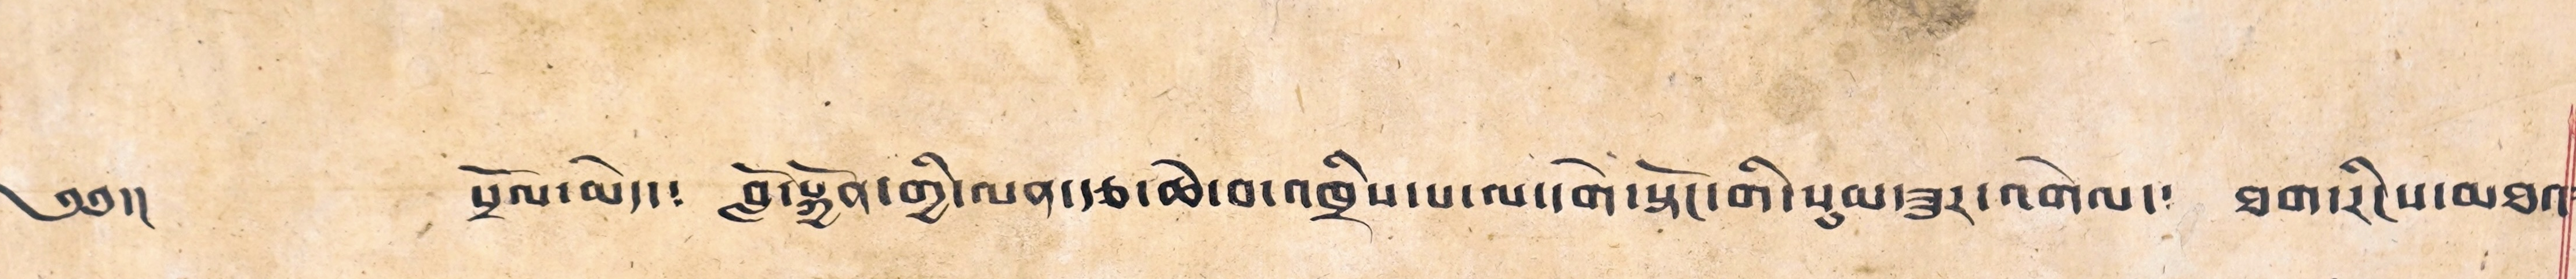༄༅།། སྲོལ་མེད་༴ བློ་སྐྱོན་གྱི་ལན་རྩ་ཆེ་བ་འཁྲིས་པ་ལ་དགེ་སྟོང་གི་སུམ་ཟུར་འགེལ་༴ ཐག་རིངས་མཐའ༴
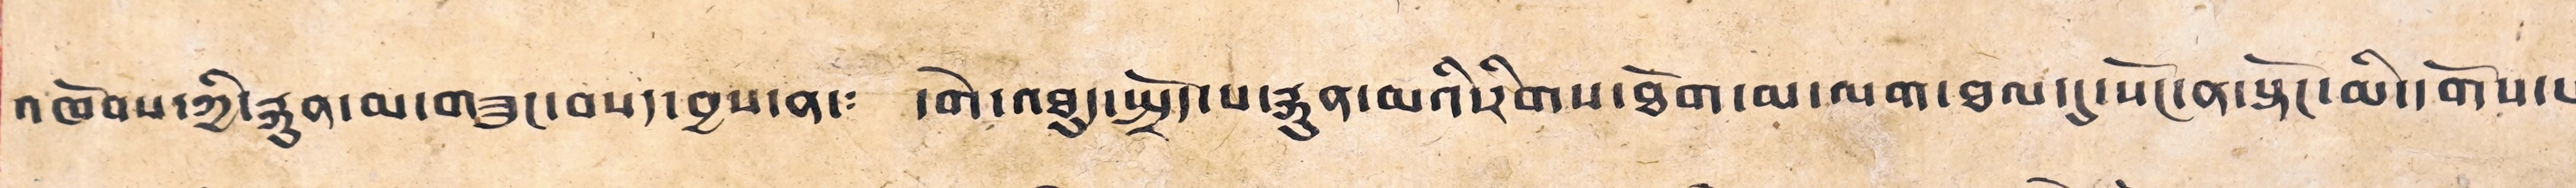འཁོབས་ཀྱི་རྐུན་མ་གཟུང་བསད་བྱས་ན་༴ དགེ་འཐུད་སྤྲོད་པ་རྐུན་མའི་རིགས་ཐོག་མ་ལག་ཐལ་དུ་སོང་ན་སྟོང་མི་དགོས་པ་
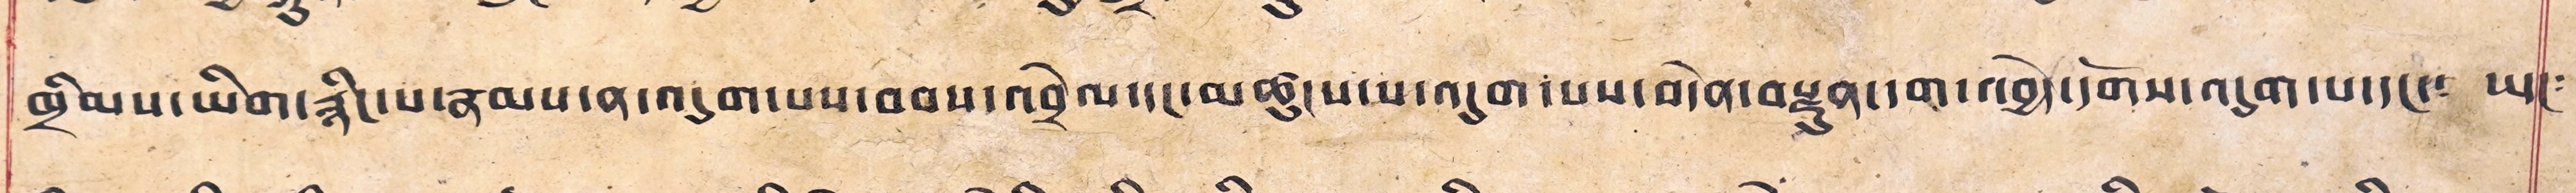ཁྲིམས་ཡིག་རྙིང་པ་རྣམས་ན་འདུག་པས་བབས་འབྲེལ་དང་མཚུངས་པ་འདུག་པས་བདེན་བརྫུན་དག་འབྱེད་དོགས་འདུག་པ་དང་༴ ཡང༴
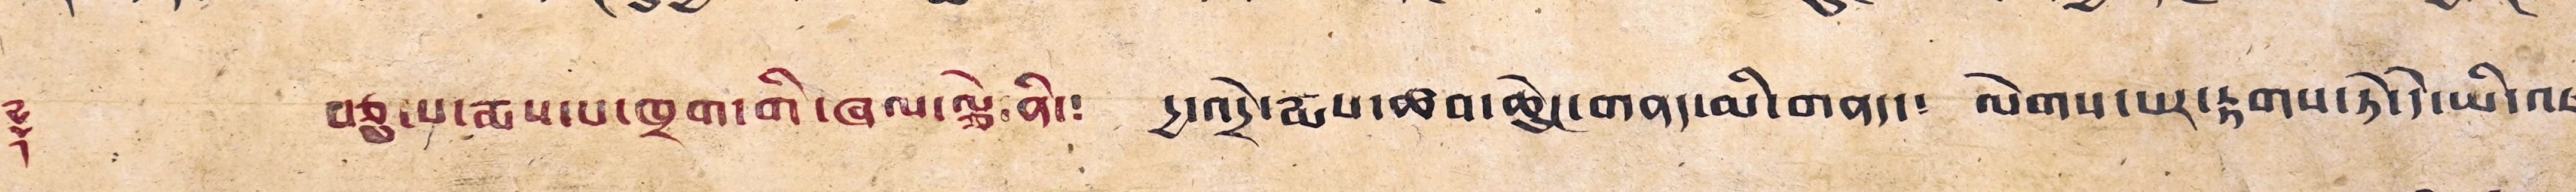༈ བཅུ་པ་རྨས་པ་ཁྲག་གི་ཞལ་ལྕེ་ནི་༴ དྱ་འདྲེ་རྨས་ཚབ་ཆེུང་གནད་མི་གནད་༴ ལེགས་པར་རྟགས་ཏེ་དེ་ཡི་འཇལ༴
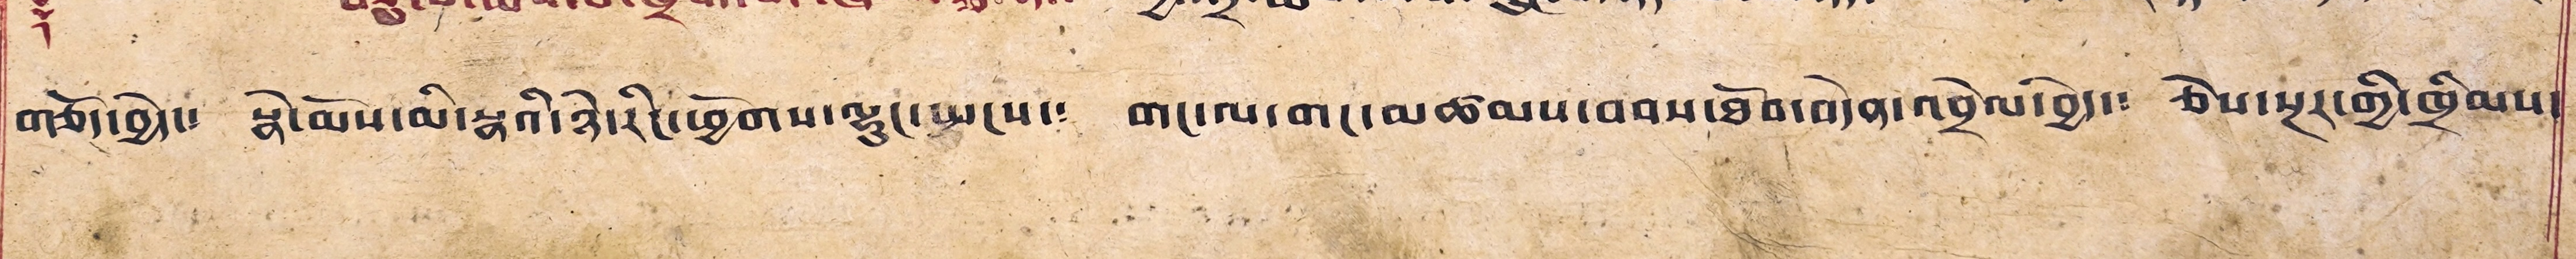གཅོད་བྱེད་༴ སྣེ་མོས་མི་སྣའི་ཉེ་རིང་ཕྱོགས་ལྷུང་སྤངས་༴ གང་ལ་གང་མཚམས་བབས་ཐོབ་བདེན་འབྲེལ་བྱེད་༴ ཅེས་སྔར་གྱི་ཁྲིམས་
